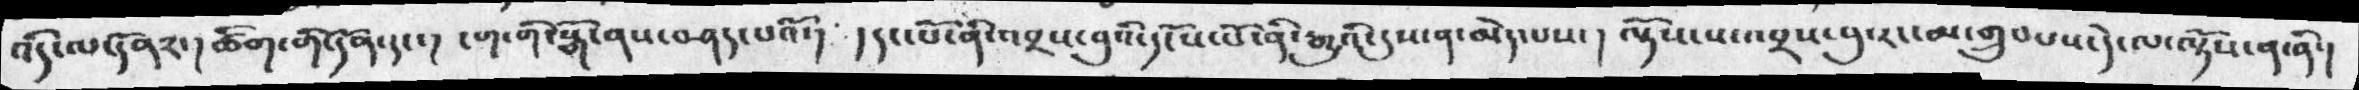འདི་ལ་དོན༢་། ཚིག་གི་དོན་དང་།  ངག་གི་སྒོ་ནས་བཤད་པའོ་།  །དང་པོ་ནི་འབྲས་བུའི་དངོས་པོ་ནི་རྒྱུའི་དུས་ན་མེད་པས་ ། ལྟོས་ས་འབྲས་བུ་རང་མ་གྲུབ་པས་དེ་ལ་ལྟོས་ན་ནི་།
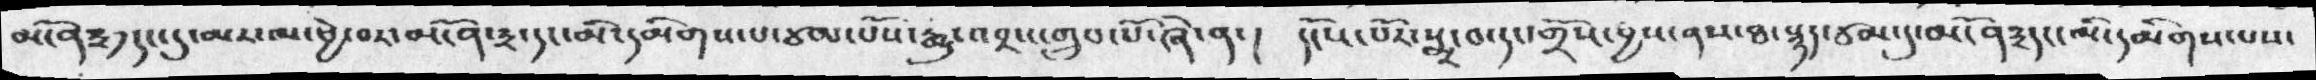མངོན༣༡དང་དུ་མར་མ་ཕྱེ་བར་མངོན་༣་དང་མི་དམིགས་པ་ཙམ་པོས་རྒྱུ་འབྲས་གྲུབ་པ་ཞེ་ན་།  དངོས་པོར་སྨྲ་བ་དང་གྲོས་བྱས་ནས་ཐ་སྙད་ཙམ་དུ་མངོན༣དང་མི་དམིགས་པས་
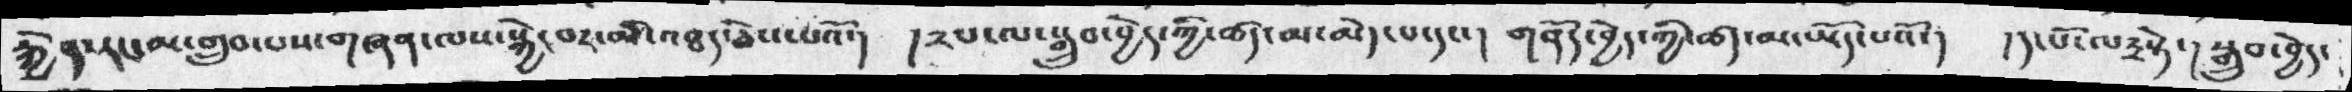རྐྱེན་རང་མ་གྲུབ་པས་གཞན་ལས་སྐྱེ་བར་མི་འཐད་ཅེས་པའོ་།  །༢པ་ལ་སྒྲུབ་བྱེད་ཀྱི་ཚད་མ་མེད་པ་དང་།  གནོད་བྱེད་གྱི་ཚད་མ་ཡོད་པའོ་།  །དང་པོ་ལ༣སྟེ་།སྒྲུབ་བྱེད་
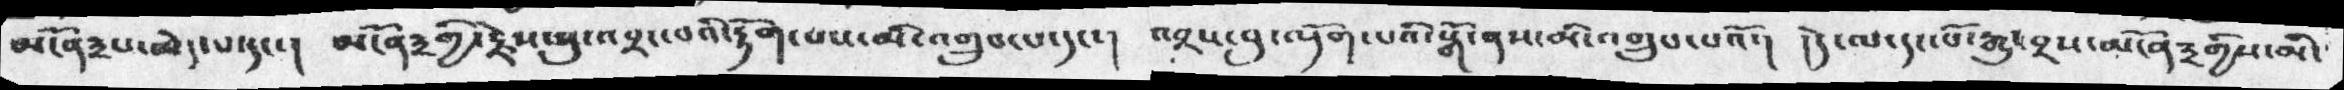མངོན༣པ་མེད་པ་དང་།  མངོན༣གྱི་རྗེས་སུ་འབྲང་བའི་རྟོག་པས་མི་འགྲུབ་པ་དང་།  འབྲས་བུ་འདོག་པའི་སྒོ་ནས་མི་འགྲུབ་པའོ་། །དེ་ལ་དང་པོ་རྒྱུའབྲས་མངོན༣གྱིས་མི་
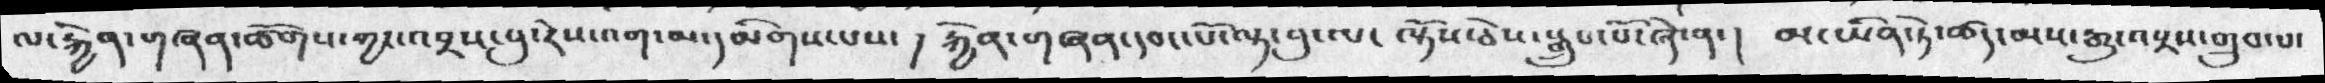ལ་རྐྱེན་གཞན་ཚོགས་ཀྱང་འབྲས་བུ་རེས་འག་མ་དམིགས་པས་ ། རྐྱེན་གཞན་དབང་པོ་ལྟ་བུ་པ་ལ་ ལྟོས་ཅེས་སྒྲུབ་པོ་ཞེ་ན་།  མ་ཡིན་ཏེ་ཚད་མས་རྒྱུ་འབྲས་གྲུབ་པ་
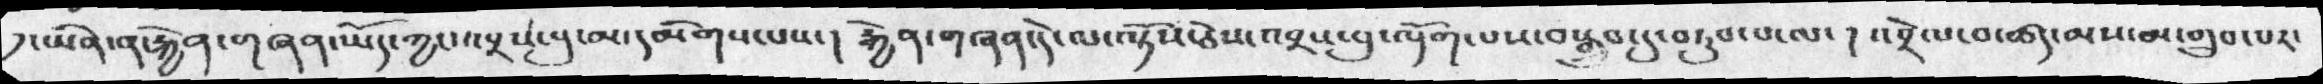༡་ཡིན་ན་རྐྱེན་གཞན་ཡོད་ཀྱང་འབྲས་བུ་མ་དམིགས་པས་།  རྐྱེན་གཞན་དེ་ལ་ལྟོས་ཅེས་འབྲས་བུ་ལྡོག་པས་བསྒྲུབ་དུ་བཏུབ་པ་ལ་ ། འབྲེལ་བ་ཚད་མས་མ་གྲུབ་པར་
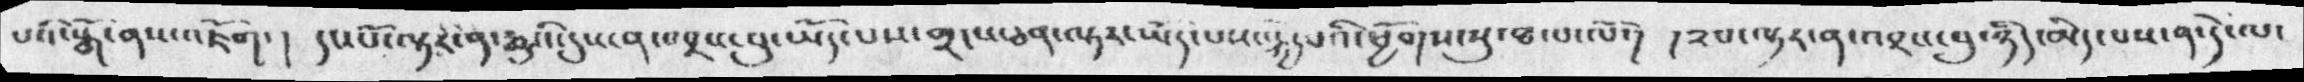པའི་སྒོ་ནས་འཇོག་།  དང་པོ་ལྟར་ན་རྒྱུའི་དུས་ན་འབྲས་བུ་ཡོད་པས་གྲངས་ཅན་ལྟར་ཡོད་པས་སྐྱེ་པའི་ཕྱོགས་སུ་ཐལ་ལོ་།  ། ༢པ་ལྟར་ན་འབྲས་བུ་ཉིད་མེད་པས་ན་དེ་ལ་
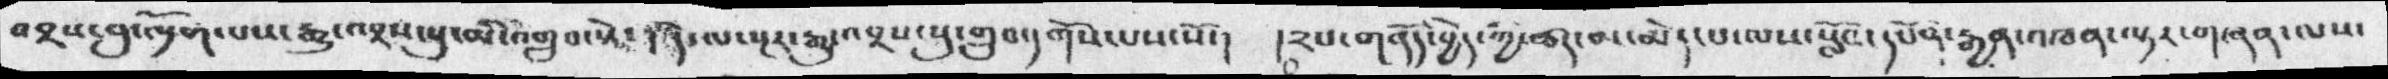འབྲས་བུ་ལྡོག་པས་རྒྱུ་འབྲས་སུ་མི་འགྲུབ་སྟེ་ ། དེ་ལ་སྔར་རྒྱུ་འབྲས་སུ་གྲུབ་དགོས་པས་སོ་ །   །༢པ་གནོད་བྱེད་ཀྱི་ཚད་མ་མེད་པ་ལས་སློབ་དཔོན་རྒྱན་མཁན་ལྟར་གཞན་ལས་
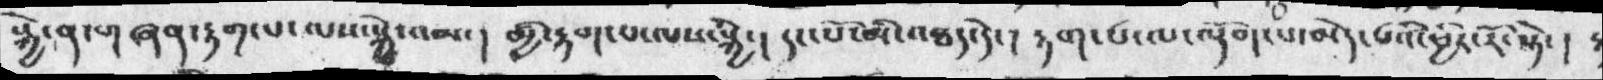སྐྱེ་ན་གཞན་རྟག་པ་ལས་སྐྱེ་འམ་། མྱི་རྟག་པ་ལས་སྐྱེ་། དང་པོ་མི་འཐད་དེ་། རྟག་པ་ལ་ལྡོག་པ་མེད་པའི་ཕྱིར་རོ་སྟེ་།
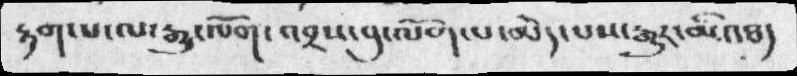རྟག་པ་ལ་རྒྱུ་ལོག་འབྲས་བུ་ལོག་པ་མེད་པས་རྒྱུར་མི་འཐད
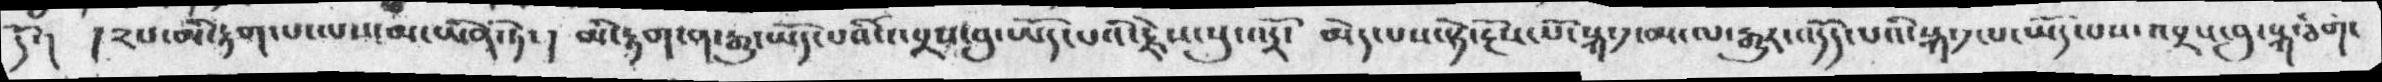དོ་།  །༢པ་མི་རྟག་པ་ལས་མ་ཡིན་ཏེ་ ། མི་རྟག་ན་རྒྱུ་ཡོད་པའི་འབྲས་བུ་ཡོད་པའི་རྗེས་སུ་འདྲོ་  མེད་པས་སྟེ་རྔོས་པོ་སྐ་༡་མ་ལ་རྒྱུར་འདོད་པའི་སྐ་༡་པ་ཡོད་པས་འབྲས་བུ་སྐ་ཅིག་
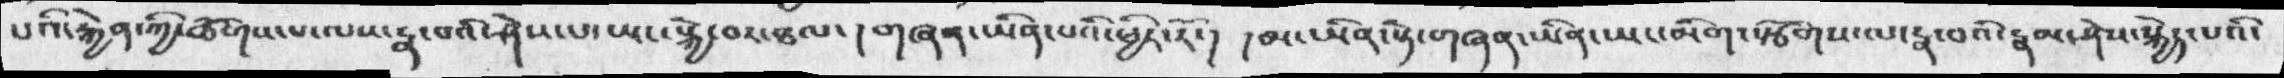པའི་རྐྱེན་ཀྱི་ཚོགས་པ་ལས་རྣ་བའི་ཤེས་པ་ཡང་སྐྱེ་བར་ཐལ་ ། གཞན་ཡིན་པའི་ཕྱིར་རོ་།  །མ་ཡིན་སྟེ་གཞན་ཡིན་ཡང་མིག་སྩོགས་ལ་རྣ་བའི་རྣམ་ཤེས་སྐྱེད་པའི་
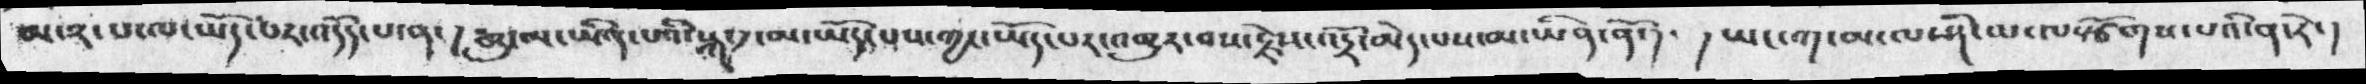མ་༢་པ་ལ་ཡོད་པར་འདོད་པ་ན་། རྒྱུ་མ་ཡིན་པའི་སྐ་༡་མ་ཡོད་པས་ཀྱང་ཡོད་པར་འགྱུར་བས་རྗེས་འདྲོ་མེད་པས་མ་ཡིན་ནོ་།  ། ཡང་ག་མ་ལ་ཤི་ལ་ལསྩོགས་པའི་ན་རེ་།
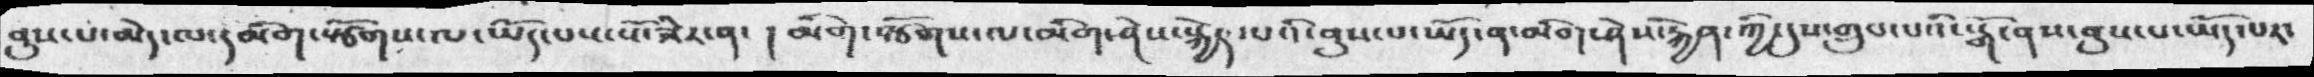ནུས་པ་མེད་ལ་དམིག་སྩོགས་ལ་ཡོད་པས་སོ་ཟེར་ན་  ། མིག་སྩོགས་ལ་མིག་ཤེས་སྐྱེད་པའི་ནུས་པ་ཡོད་ན་མིག་ཤེས་རྐྱེན་ཀྱི་དུས་གྲུབ་པའི་སྒོ་ནས་ནུས་པ་ཡོད་པར་
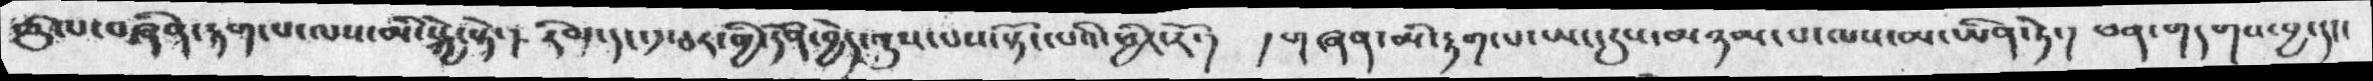ཚུལ་བཞིན་རྟག་པ་ལས་མི་སྐྱེ་སྟེ་། རིམ་དང་༡ཅར་གྱི་དོན་བྱེད་ནུས་པས་སྟོང་པའི་ཕྱིར་རོ་། །གཞཉ་མི་རྟག་པ་ཡང་དུས་མཉམ་པ་ལས་མ་ཡིན་ཏེ་། ཕན་གདགས་བྱ་དང་
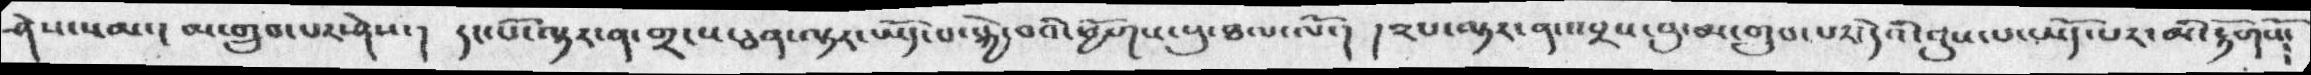ཤེས་སམ་། མ་གྲུབ་པར་ཤེས་།  དང་པོ་ལྟར་ན་གྲངས་ཅན་ལྟར་ཡོད་པ་སྐྱེ་བའི་ཕྱོགས་སུ་ཐལ་ལོ་།  ། ༢པ་ལྟར་ན་འབྲས་བུ་མ་གྲུབ་པར་དེའི་ནུས་པ་ཡོད་པར་མི་རྟོགསོ༴
